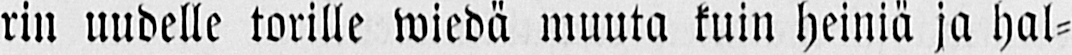rin uudelle torille wiedä muuta kuin heiniä ja hal-
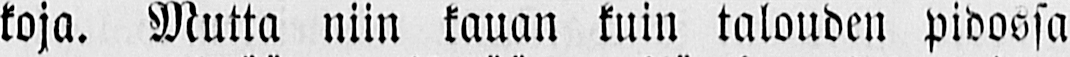koja. Mutta niin kauan kuin talouden pidossa
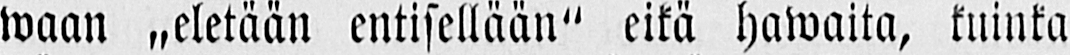waan entisellään" eikä hawaita, kuinka
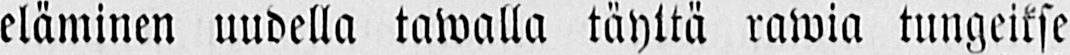eläminen uudella tawalla täyltä rawia tungeikse
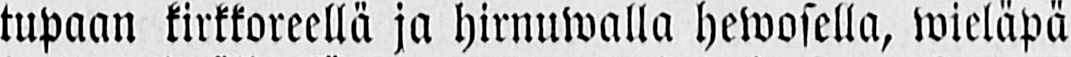tupaan kirkkoreellä ja hirnuwalla hewosella, weläpä
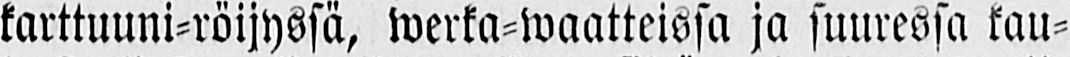karttuuni-röijyssä, werka-waatteissa ja suuressa kau-
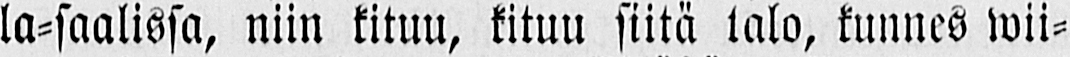la-saalissa, niin kituu, kituu siitä talo, kunnes wii-
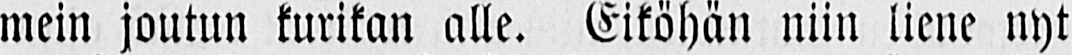mein joutun kurikan alle. Eiköhän niin liene nyt
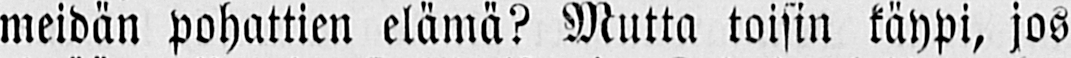meidän pohattien elämä Mutta toisin käypi, jos
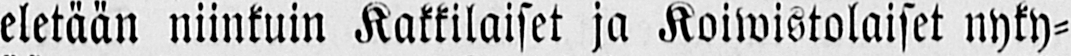eletään niinkuin Kakkilaiset ja Koiwistolaiset nyky-
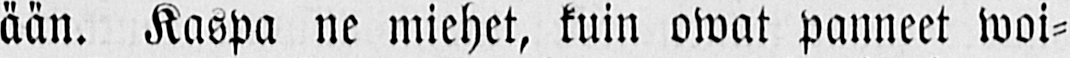ään. Kaspa ne miehet, kuin owat panneet woi-
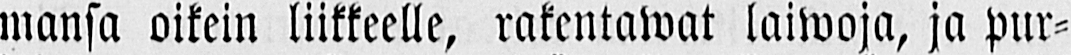mansa oikein liikkeelle, rakentawat laiwoja, ja pur-
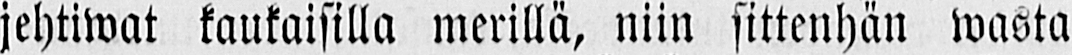jehtiwat kaukaisilla merillä, niin sittenhän wasta
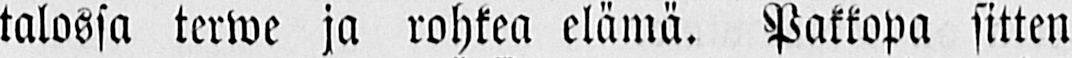talossa terwe ja rohkea elämä. Pakkopa sitten
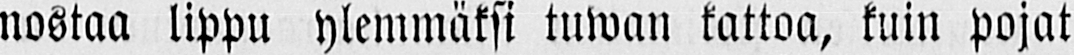nostaa lippu ylemmäksi tuwan kattoa, kuin pojat
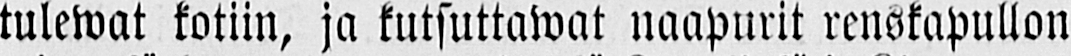tulewat kotiin, ja kutsuttawat naapurit renskapullon
